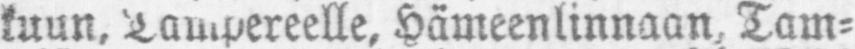kuun, Tampereelle, Hämeenlinnaan, Tam-
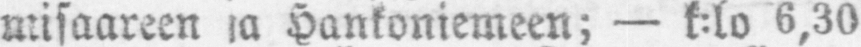misaareen ja Hankoniemeen; — k:lo 6,30
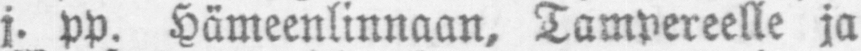j. pp. Hämeenlinnaan, Tampereelle ja
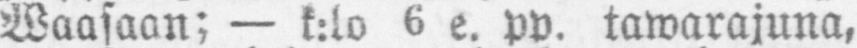Waasaan; — k:lo 6 e. pp. tawarajuna,
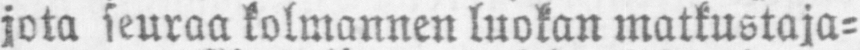jota seuraa kolmannen luokan matkustaja-
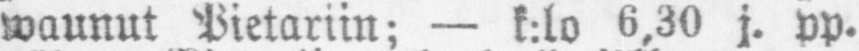waunut Pietariin; — k:lo 6,30 j. pp.
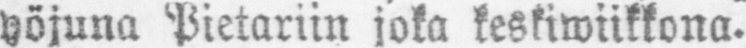yöjuna Pietariin joka keskiwiikkona.
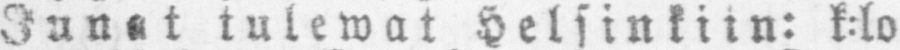Junat tulewat Helsinkiin: k:lo
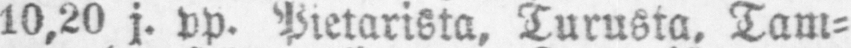10,20 j. pp. Pietarista, Turusta. Tam-
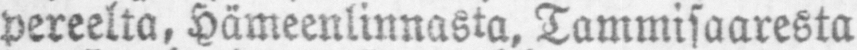pereelta, Hämeenlinnasta, Tammisaaresta
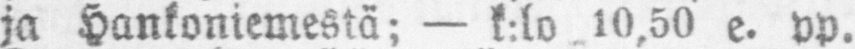ja Hankoniemestä; — k:lo 10,50 e. pp.
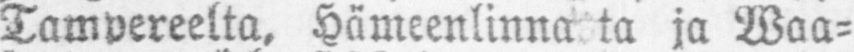Tampereelta, Hämeenlinnasta ja Waa-
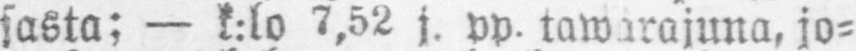sasta; — k:lo 7,52 j. pp. tawarajuna, jo-
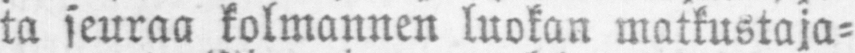ta seuraa kolmannen luokan matkustaja-
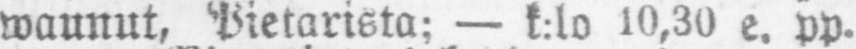waunut, Pietarista; — k:lo 10,30 e. pp.
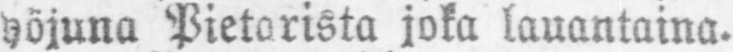yöjuna Pietarista joka lauantaina.
